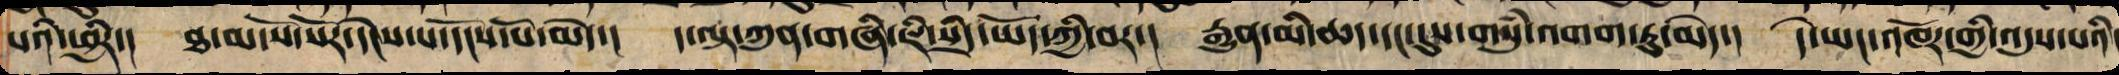པའི་ཕྱིར་། ཐ་མ་སོ་སོར་དེངས་པ་དངོས་པོ་མེད་། ད་ལྟ་ཀུན་གཞི་ཇི་སྲིད་ཡོད་ཀྱི་བར་། རྒྱུན་མི་འཆད་དང་དུས་གསུཾ་འགག་པ་མེད་། དེ་ཡང་འཁོར་གྱི་འདུས་པའི་
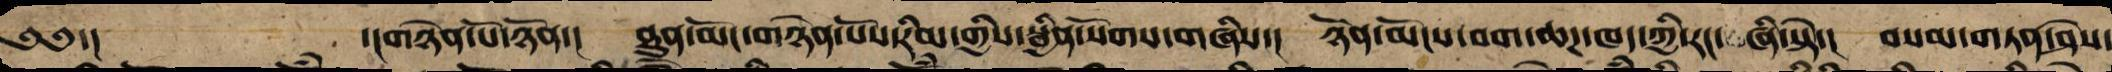༄༅་། ་།སྙིང་པོ་ཉོན་། ཐུན་མོང་གཉེན་པོའི་རིགས་ནི་སྦྱིན་སོགས་བཞིས་། ཉོན་མོངས་བག་ཆཌ་ཁད་ཀྱིས་རང་ཞི་སྟེ་། བསམ་གཏན་ཤེས་
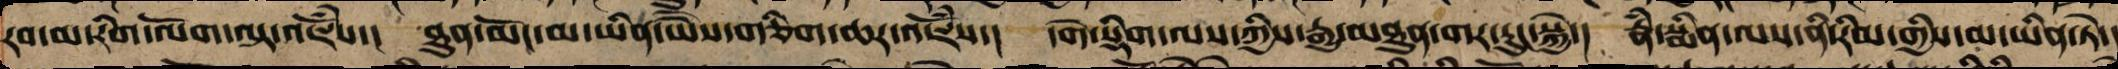རབ་མ་རིག་ལོག་ལྟ་འཇོཾས་། ཐུན་མོང་མ་ཡིན་ཡེཻས་ཅིག་ཆར་འཇོཾས་། དགེ་སྡིག་ལས་ཀྱིས་རྒྱུ་མཐུན་གར་རུང་སྐྱེ་། རྣཾ་སྨིན་ལས་ནི་རིམ་གྱིས་མ་ཡིན་ཏེ་།
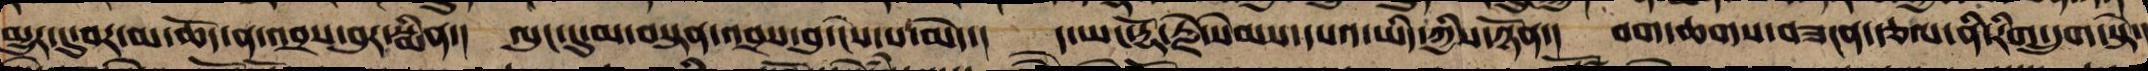མྱུར་དུ་བར་མ་ཆོད་ནས་འབྲས་བུ་སྨིན་། ལུང་དུ་མ་བསྟན་འབྲས་བུ་ངེས་པ་མེད་། ད་ཡང་རྡོ་རྗེ་སེམས་དཔའ་ཡིད་ཀྱིས་ཉོན་། བག་ཆགས་བཟངན་རྩལ་ནི་རིག་དྲུག་སྟེ་།
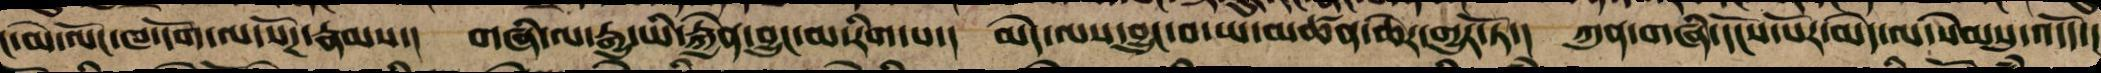ང་མེ་ལོང་ཁ་དོག་ལ་སོགས་རྣམས་། གཞི་ལ་རྒྱུ་ཡི་རྐྱེན་བྱུང་མ་རིག་པ་། མེད་ལས་བྱུང་བ་ཡ་མཚན་ཆེར་གྱུར་ཏོ་། ཀུན་གཞི་དངོས་པོར་མེད་ལ་སེམསུ་འདོད་།
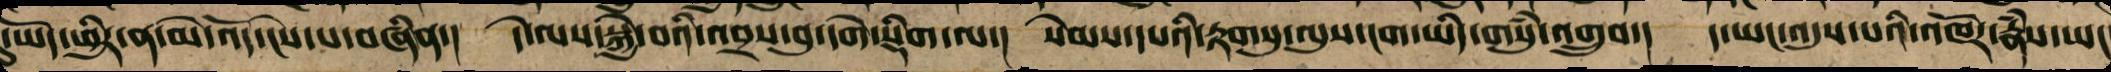དུ་ཡོད་ཕྱིར་ན་མེ་འོད་ངེས་པ་བཞིན་། དེ་ལས་སྐྱེ་བའི་འབྲས་བུ་དགེ་སྡིག་ལ་། སེམས་པའི་རྟགས་སུ་ལུས་ངག་ཡིད་གསུཾ་འགྲུབ་། ད་ཡང་འདུས་པའི་འཁོར་རྣཾས་ཡང
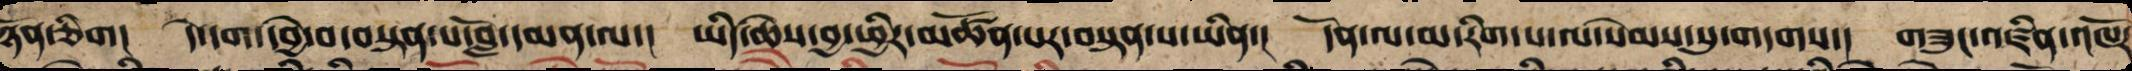ཉོན་ཅིག། དེ་དག་དབྱེ་བ་བསྟན་པ་བློ་དམན་ལ་། ཡིད་ཆེས་བྱ་ཕྱིར་མཚོན་པར་བསྟན་པ་ཡིན་།  དོན་ལ་མ་རིག་པ་ལ་སེམས་སུ་གདགས་། གཟུང་འཛིན་འཁོར
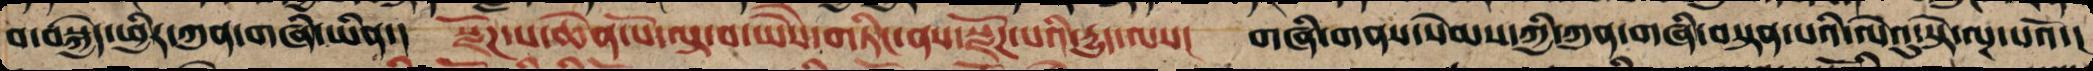བ་བསྐྱེད་ཕྱིར་ཀུན་གཞི་ཡིན་། སྫོཌ་པ་ཆེན་པོ་ལྟ་བ་ཡཻས་གཏིང་ནས་སྫོཌ་པའི་རྒྱུད་ལས། གཞི་གནས་སེམས་ཀྱི་ཀུན་གཞི་བསྟན་པའི་ལེའུ་སྟེ་ལྔ་པའོ་།།
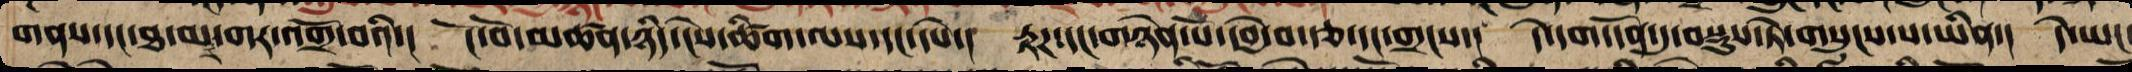གནས་དང་ཐ་མར་གར་འགྲོ་བའི་། ངོ་བོ་མཚན་ཉིད་ངེས་ཚིག་ལས་དང་དཔེ་། རྟཌ་དང་གཉེན་པོ་དབྱེ་བ་རྩ་དང་གྲངས་། དེ་དག་དོན་དུ་བསྡུས་ཏེ་གསུངས་པ་ཡིན་། དེ་ཡང་
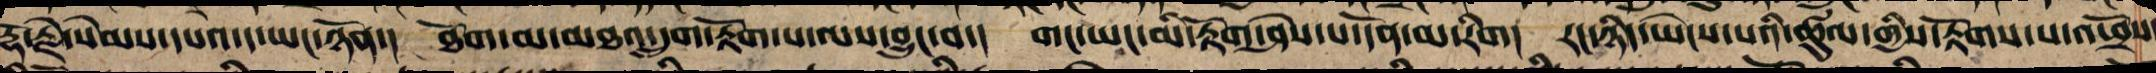རྡོ་རྗེ་སེམས་དཔའ་ད་ཡང་ཉོན་། ཐོག་མ་མཐའ་དྲུག་རྟོག་པ་ལས་བྱུང་བ་། གང་ཡང་མི་རྟོག་ཤེས་པ་དོན་མ་རིག། རང་ཉིད་ཡེངས་པའི་ཚུལ་གྱིས་རྟོགས་པ་འཕྲོས་
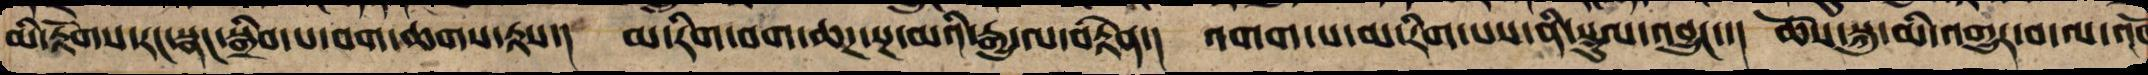མི་རྟོགས་རང་སྣང་སྒྲིབ་པ་བག་ཆགས་རྟས་། མ་རིག་བག་ཆཌ་སྔ་མའི་རྒྱུ་ལ་བརྟེན་། འགག་པ་མ་རིག་པས་ནི་སྡུག་བསྔལ་འབྱུང་། ཆོས་སྐུ་མི་འགྱུར་བ་ལ་འཁོ
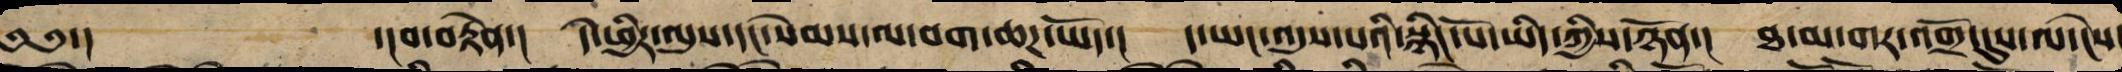༄༅་།  ་།བ་བརྟེན་། དེ་ཕྱིར་ལུས་དང་སེམས་ལ་བག་ཆཌ་ཡོད་། དེ་ཡང་འདུས་པའི་སྙིང་པོ་ཡིད་ཀྱིས་ཉོན་། ཐ་མ་གར་འགྲོ་དུས་ལ་ངེས་
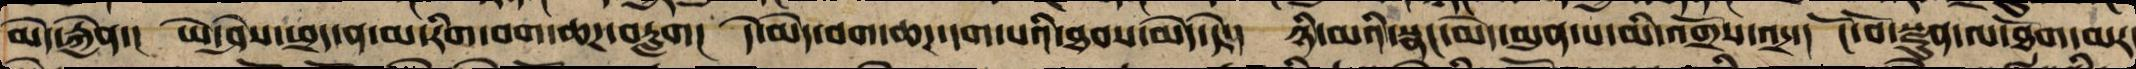མེད་རྐྱེན་། ཡེ་ཤེས་ཕྲད་ན་མ་རིག་བག་ཆཌ་བརླག། དེ་མེད་བག་ཆཌ་དག་པའི་ཐབས་མེད་དེ་། ཉི་མའི་སྣང་མེད་མུན་པ་མི་འགྲོས་འདྲ་། ངོ་བོ་སྫུན་ལ་ཐོག་མར་
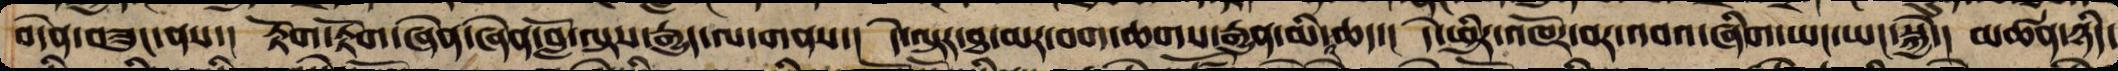བདེན་བཟུང་ནས་། རྟོག་རྟོག་ཞེན་ཞེན་བློ་ལྟས་རྒྱུད་ལ་གནས་། དེ་ལྟར་ཐ་མར་བག་ཆགས་རྒྱུན་མི་འཆད་། དེ་ཕྱིར་འཁོར་བ་འབའ་ཞིག་ཡང་ཡང་སྐྱེ་། མཚན་ཉིད་
